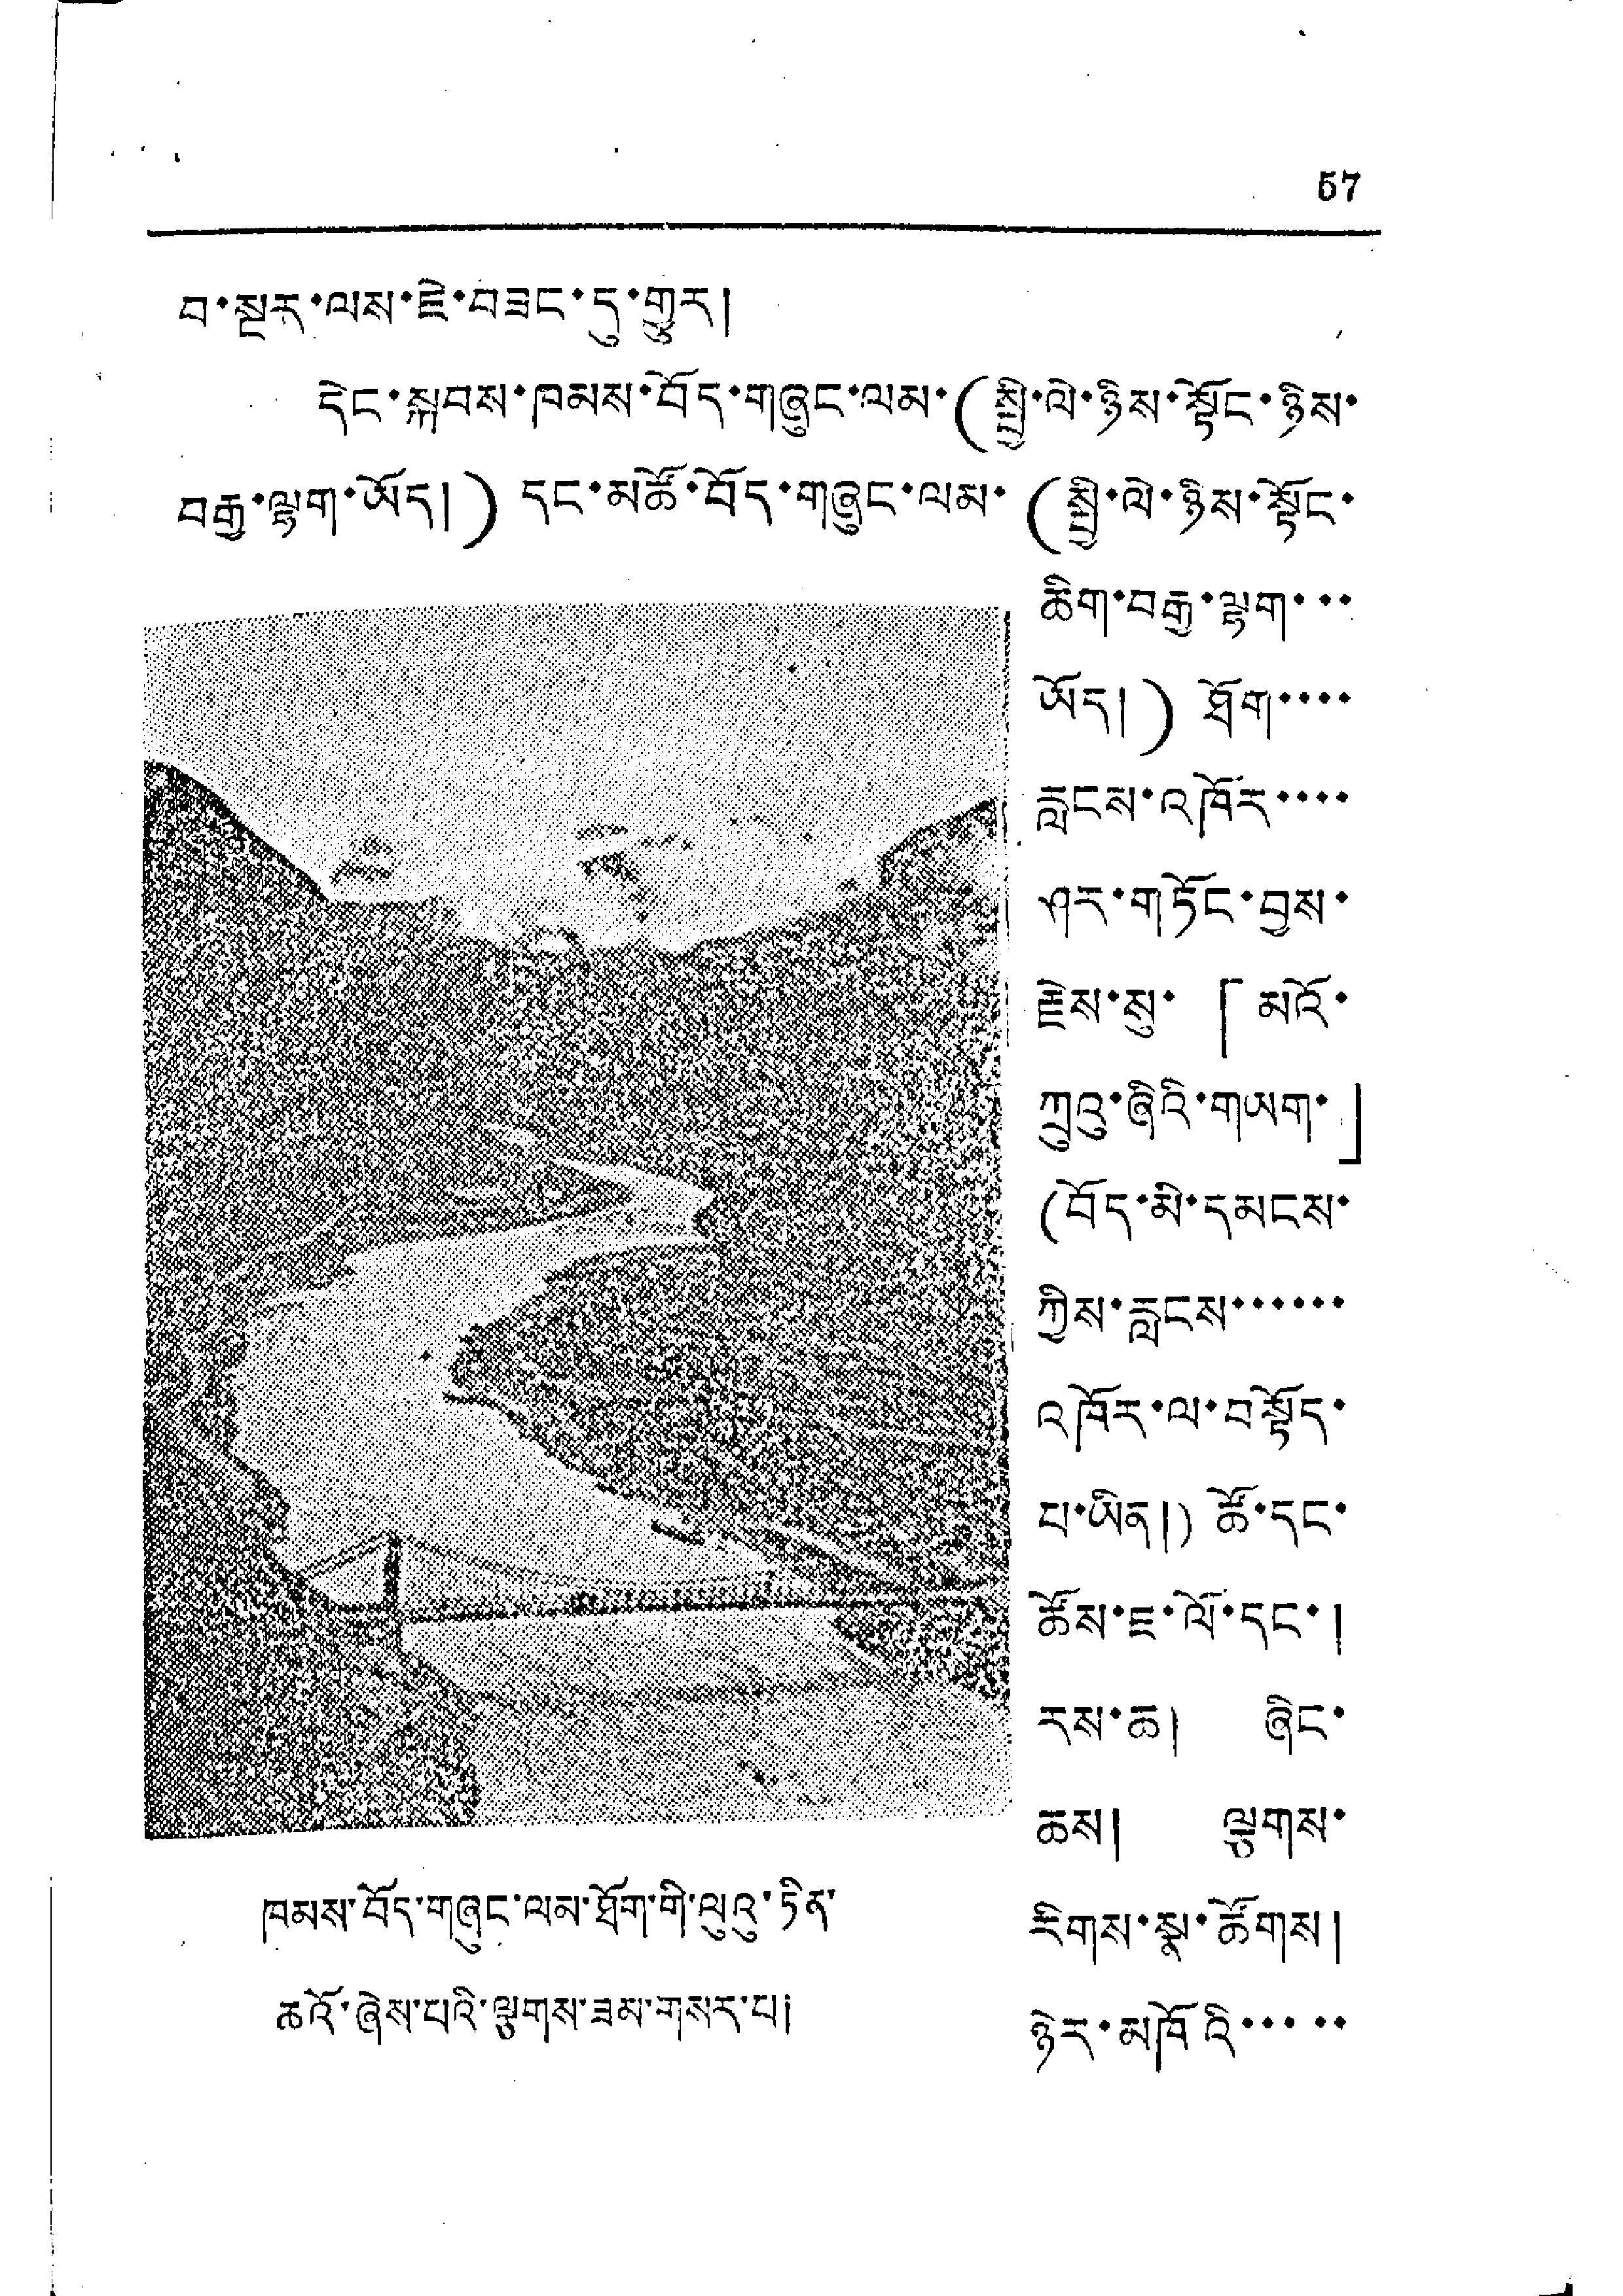57
བ་སྔར་ལས་ཇེ་བཟང་དུ་གྱུར།
དེང་སྐབས་ཁམས་བོད་གཞུང་ལམ་(སྤྱི་ལེ་ཉིས་སྟོང་ཉིས་
བརྒྱ་ལྷག་ཡོད།) དང་མཚོ་བོད་གཞུང་ལམ་ (སྤྱི་ལེ་ཉིས་སྟོང་
ཆིག་བརྒྱ་ལྷག་་་
ཡོད།) ཐོག་་་་
རླངས་འཁོར་་་་
ཤར་གཏོང་བྱས་
རྗེས་སུ་「མའོ་
ཀྲུའུ་ཞིའི་གཡག་」
(བོད་མི་དམངས་
ཀྱིས་རླངས་་་་་་
འཁོར་ལ་བསྟོད་
པ་ཡིན།) ཚོ་དང་
ཚོས་ཇ་ལོ་དང་།
རས་ཆ། ཞིང་
ཆས། ལྕགས་
རིགས་སྣ་ཚོགས།
ཉེར་མཁོའི་་་་་
ཁམས་བོད་གཞུང་ལམ་ཐོག་གི་ལུའུ་ཏིན་
ཆའོ་ཞེས་པའི་ལྕགས་ཟམ་གསར་པ།
